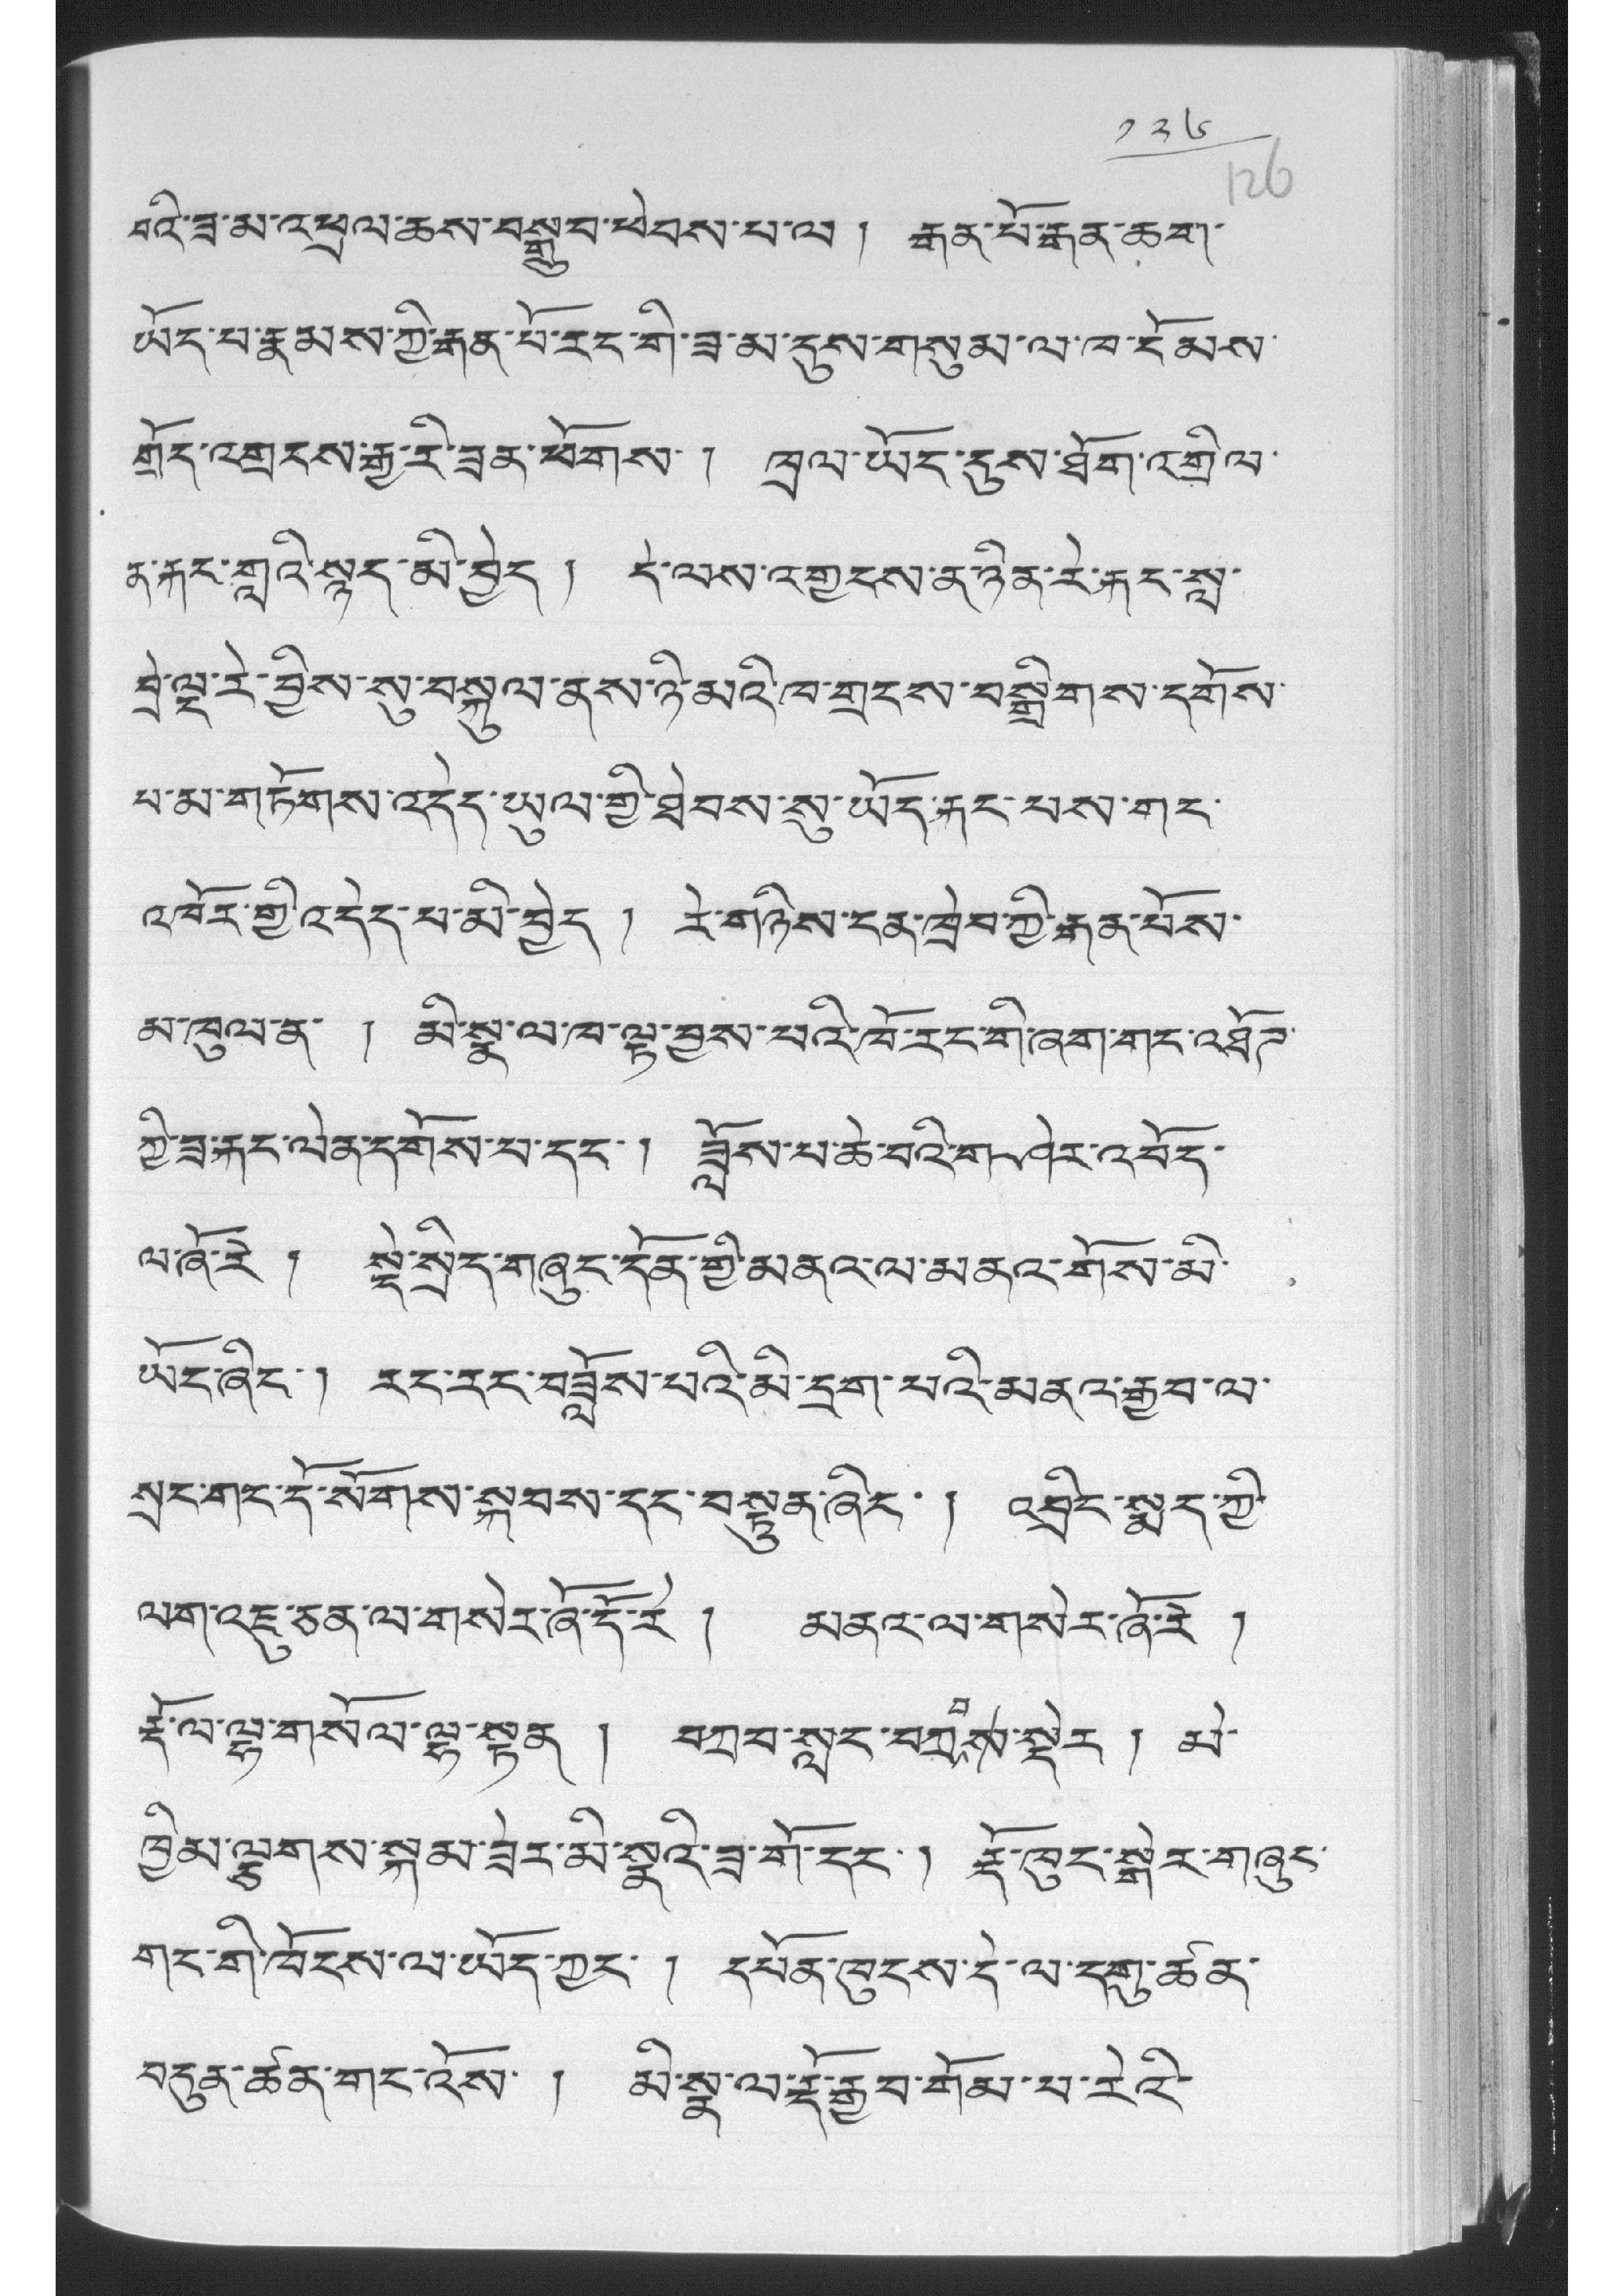༡༢༦
བའི་ཟ་མ་འཕྲལ་ཆས་བསྒྲུབ་ཕེབས་པ་ལ ། རྒན་པོ་རྒན་ཆག་
ཡོད་པ་རྣམས་ཀྱི་རྒན་པོ་རང་གི་ཟ་མ་དུས་གསུམ་ལ་ཁ་ངོམས་
གྲོད་འགྲངས་རྒྱ་རི་ཟན་ཕོགས་ ། ཁྲལ་ཡོང་དུས་ཐོག་འགྲིལ་
ན་རྐང་གླའི་སྙད་མི་བྱེད ། དེ་ལས་འགྱངས་ན་ཉིན་རེ་རྐང་སླ་
བྲེ་ལྔ་རེ་བྱིས་སུ་བསྐུལ་ནས་ཉི་མའི་ཁ་གྲངས་བསྒྲིགས་དགོས་
པ་མ་གཏོགས་འདེད་ཡུལ་གྱི་ཐེབས་སུ་ཡོད་རྐང་པས་གང་
འཁོར་གྱི་འདེད་པ་མི་བྱེད ། རེ་གཉིས་ངན་ཁྲེབ་ཀྱི་རྒན་པོས་
མ་ཁུལ་ན་ ། མི་སྣ་ལ་ཁ་ལྟ་བྱས་པའི་ཁོ་རང་གཞག་གང་འཐོཊ་
ཀྱི་ཟ་རྐང་ལེན་དགོས་པ་དང་། ཟློས་པ་ཆེ་བའི་གཤེར་འབོད་
ལ་ཞོ་རེ ། སྡེ་སྲིད་གཞུང་དོན་གྱི་མནའ་ལ་མནའ་གོས་མི་
ཡོང་ཞིང་། རང་རང་བཟློས་པའི་མི་དྲག་པའི་མནའ་རྒྱབ་ལ་
སྲང་གང་དོ་སོགས་སྐབས་དང་བསྟུན་ཞིང་ ། འབྲིང་སྨད་ཀྱི་
ལག་འཇུ་ཅན་ལ་གསེར་ཞོ་དོ་རེ ། མནའ་ལ་གསེར་ཞོ་རེ །
རྡོ་ལ་ལྷ་གསལ་ལྷ་སྟན ། བཀྲབ་སླང་བཀྲབས་སྡེར། མེ་
ཁྱིམ་ལྕགས་སྐམ་ཟེར་མི་སྣའི་ཟ་གོ་དང་། རྡོ་ཁུང་སྒེར་གཞུང་
གང་གི་ཁོངས་ལ་ཡོད་ཀྱང་ ། དཔོན་ཁུངས་དེ་ལ་དགུ་ཚན་
བདུན་ཚན་གང་འོས་ ། མི་སྣ་ལ་རྡོ་རྒྱབ་གོམ་པ་རེའི་
